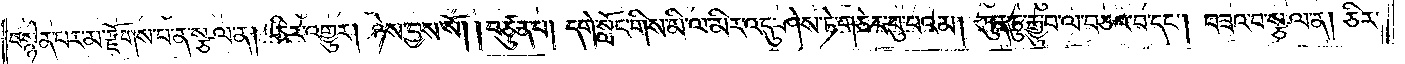བསྙེན་པར་མ་རྫོགས་པ་ན་སྩལ་ན། ཅིར་འགྱུར། ཉེས་བྱས་སོ། །བཙུན་པ། དགེ་སློང་གིས་མི་ལ་མིར་འདུ་ཤེས་ཏེ་གཅེར་བུ་པའམ། ཀུན་ཏུ་རྒྱུ་བ་ལ་བཅའ་བ་དང༌། བཟའ་བ་སྩལ་ན། ཅིར་
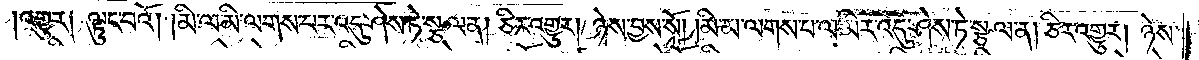།འགྱུར༑ ལྟུང་བའོ། །མི་ལ་མི་ལགས་པར་འདུ་ཤེས་ཏེ་སྩལ་ན། ཅིར་འགྱུར། ཉེས་བྱས་སོ། །མི་མ་ལགས་པ་ལ་མིར་འདུ་ཤེས་ཏེ་སྩལ་ན། ཅིར་འགྱུར། ཉེས་
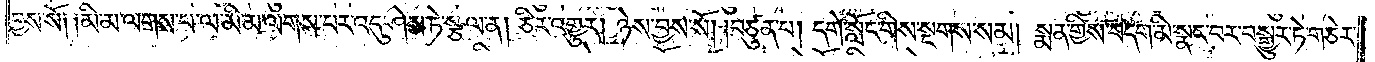བྱས་སོ༑ ༑མི་མ་ལགས་པ་ལ་མི་མ་ལགས་པར་འདུ་ཤེས་ཏེ་སྩལ་ན། ཅིར་འགྱུར། ཉེས་བྱས་སོ། །བཙུན་པ། དགེ་སློང་གིས་སྔགས་སམ། སྨན་གྱིས་བདག་མི་སྣང་བར་བསྒྱུར་ཏེ་གཅེར་
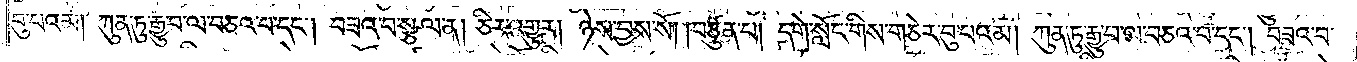བུ་པའམ། ཀུན་ཏུ་རྒྱུ་བ་ལ་བཅའ་བ་དང༌། བཟའ་བ་སྩལ་ན། ཅིར་འགྱུར། ཉེས་བྱས་སོ། །བཙུན་པ། དགེ་སློང་གིས་གཅེར་བུ་པའམ། ཀུན་ཏུ་རྒྱུ་བ་ལ་བཅའ་བ་དང༌། བཟའ་བ་
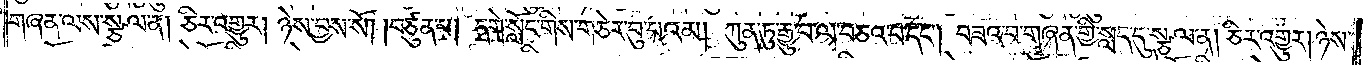གཞན་ལས་སྩལ་ན། ཅིར་འགྱུར། ཉེས་བྱས་སོ། །བཙུན་པ། དགེ་སློང་གིས་གཅེར་བུ་པའམ། ཀུན་ཏུ་རྒྱུ་བ་ལ་བཅའ་བ་དང༌། བཟའ་བ་གཞན་གྱི་སླད་དུ་སྩལ་ན། ཅིར་འགྱུར། ཉེས་
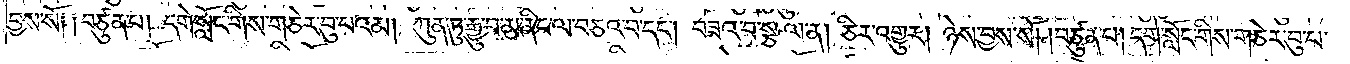བྱས་སོ༑ ༑བཙུན་པ། དགེ་སློང་གིས་གཅེར་བུ་པའམ། ཀུན་ཏུ་རྒྱུ་བ་མ་ནིང་ལ་བཅའ་བ་དང༌། བཟའ་བ་སྩལ་ན། ཅིར་འགྱུར། ཉེས་བྱས་སོ། །བཙུན་པ། དགེ་སློང་གིས་གཅེར་བུ་པ་
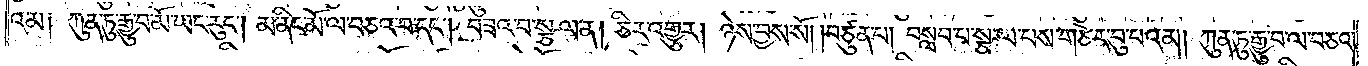འམ༑ ཀུན་ཏུ་རྒྱུ་བ་མོ་ཡང་རུང༌། མ་ནིང་མོ་ལ་བཅའ་བ་དང༌། བཟའ་བ་སྩལ་ན། ཅིར་འགྱུར། ཉེས་བྱས་སོ། །བཙུན་པ། བསླབ་པ་སྩལ་པས་གཅེར་བུ་པའམ། ཀུན་ཏུ་རྒྱུ་བ་ལ་བཅའ་
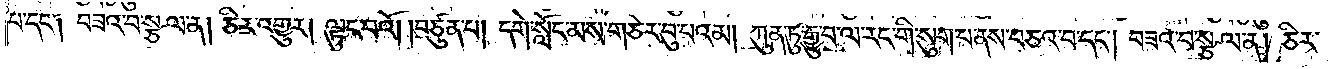པ་དང༌། བཟའ་བ་སྩལ་ན། ཅིར་འགྱུར། ལྟུང་བའོ། །བཙུན་པ། དགེ་སློང་མས་གཅེར་བུ་པའམ། ཀུན་ཏུ་རྒྱུ་བ་ལ་རང་གི་སུག་པ་ནས་བཅའ་བ་དང༌། བཟའ་བ་སྩལ་ན། ཅིར་
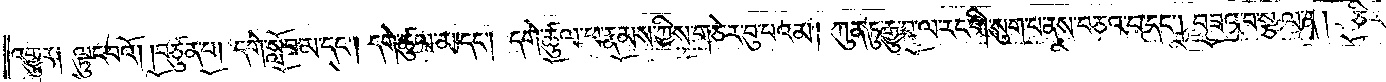འགྱུར༑ ལྟུང་བའོ། །བཙུན་པ། དགེ་སློབ་མ་དང༌། དགེ་ཚུལ་མ་དང༌། དགེ་ཚུལ་ཕ་རྣམས་ཀྱིས་གཅེར་བུ་པའམ། ཀུན་ཏུ་རྒྱུ་བ་ལ་རང་གི་སུག་པ་ནས་བཅའ་བ་དང༌། བཟའ་བ་སྩལ་ན། ཅིར་
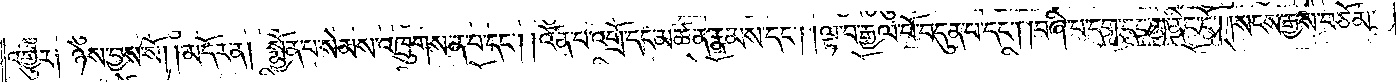འགྱུར༑ ཉེས་བྱས་སོ།    །མདོར་ན། སྨྱོན་པ་སེམས་འཁྲུགས་ན་བ་དང༌། །འོན་པ་འགྲོ་དང་མཚན་རྣམས་དང༌། །ལྟ་བ་རྒྱལ་པོ་བདུན་པ་དང༌། །བཞི་པ་དག་དང་མ་ནིང་ངོ༌། །སངས་རྒྱས་བཅོམ་
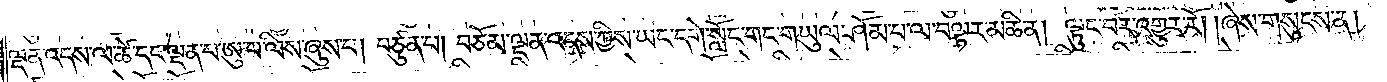ལྡན་འདས་ལ་ཚེ་དང་ལྡན་པ་ཨུ་པ་ལིས་ཞུས་པ། བཙུན་པ། བཅོམ་ལྡན་འདས་ཀྱིས་ཡང་དགེ་སློང་གང་གཡུལ་ཤོམ་པ་ལ་བལྟར་མཆི་ན། ལྟུང་བར་འགྱུར་རོ། །ཞེས་གསུངས་ན།
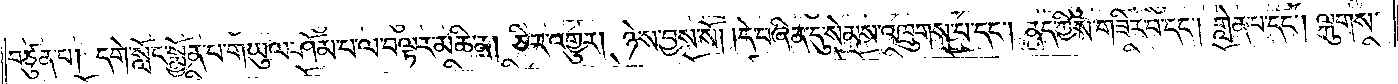བཙུན་པ། དགེ་སློང་སྨྱོན་པ་གཡུལ་ཤོམ་པ་ལ་བལྟར་མཆི་ན། ཅིར་འགྱུར། ཉེས་བྱས་སོ། །དེ་བཞིན་དུ་སེམས་འཁྲུགས་པ་དང༌། ནད་ཀྱིས་གཟིར་བ་དང༌། གླེན་པ་དང༌། ལྐུགས་
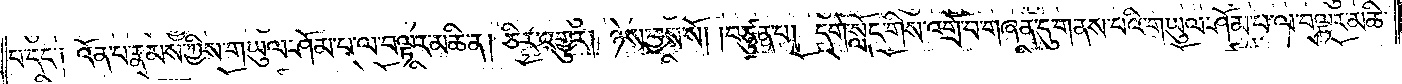པ་དང་༑ འོན་པ་རྣམས་ཀྱིས་གཡུལ་ཤོམ་པ་ལ་བལྟར་མཆི་ན། ཅིར་འགྱུར། ཉེས་བྱས་སོ། །བཙུན་པ། དགེ་སློང་གིས་འགྲོ་བ་གཞན་དུ་གནས་པའི་གཡུལ་ཤོམ་པ་ལ་བལྟར་མཆི་
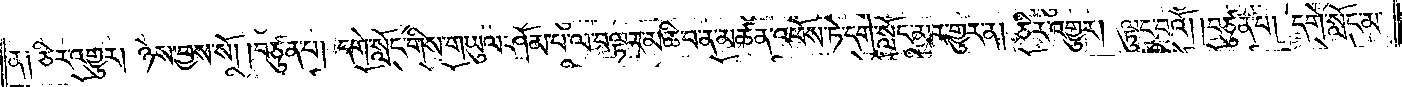ན༑ ཅིར་འགྱུར། ཉེས་བྱས་སོ། །བཙུན་པ། དགེ་སློང་གིས་གཡུལ་ཤོམ་པ་ལ་བལྟར་མཆི་བ་ན་མཚན་འཕོས་ཏེ་དགེ་སློང་མར་གྱུར་ན། ཅིར་འགྱུར། ལྟུང་བའོ། །བཙུན་པ། དགེ་སློང་མ་
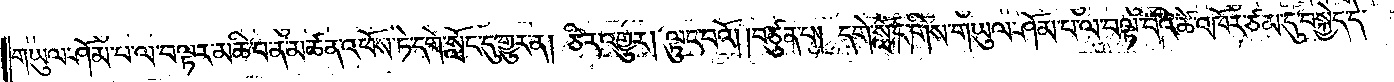གཡུལ་ཤོམ་པ་ལ་བལྟར་མཆི་བ་ན་མཚན་འཕོས་ཏེ་དགེ་སློང་དུ་གྱུར་ན། ཅིར་འགྱུར། ལྟུང་བའོ། །བཙུན་པ། དགེ་སློང་གིས་གཡུལ་ཤོམ་པ་ལ་བལྟ་བའི་ཚེ་འཁོར་ཙམ་དུ་བསྐྱེད་དེ་
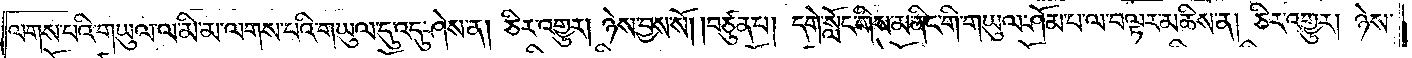ལགས་པའི་གཡུལ་ལ་མི་མ་ལགས་པའི་གཡུལ་དུ་འདུ་ཤེས་ན། ཅིར་འགྱུར། ཉེས་བྱས་སོ། །བཙུན་པ། དགེ་སློང་གིས་མ་ནིང་གི་གཡུལ་ཤོམ་པ་ལ་བལྟར་མཆིས་ན། ཅིར་འགྱུར། ཉེས་
